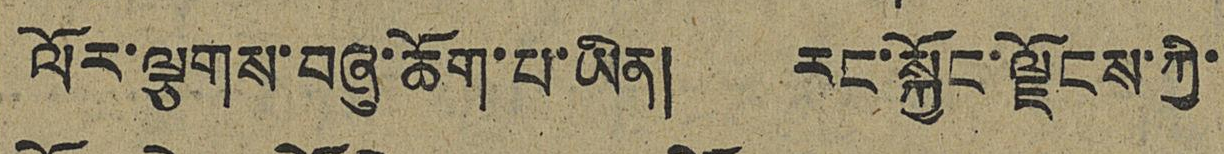ལོར་ལྕགས་བཞུ་ཆོག་པ་ཡིན། རང་སྐྱོང་ལྗོངས་ཀྱི་
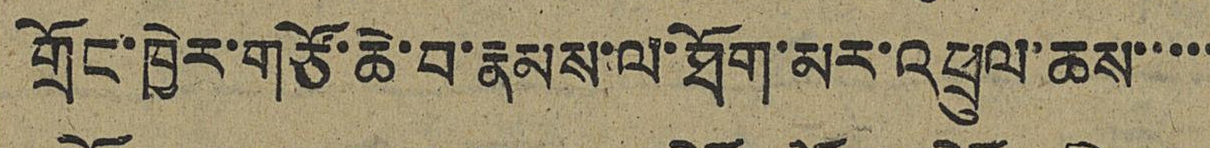གྲོང་ཁྱེར་གཙོ་ཆེ་བ་རྣམས་ལ་ཐོག་མར་འཕྲུལ་ཆས་་་་་
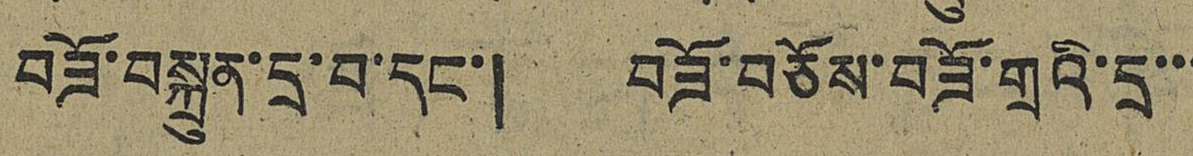བཟོ་བསྐྲུན་དྲ་བ་དང་། བཟོ་བཅོས་བཟོ་གྲའི་དྲ་་་
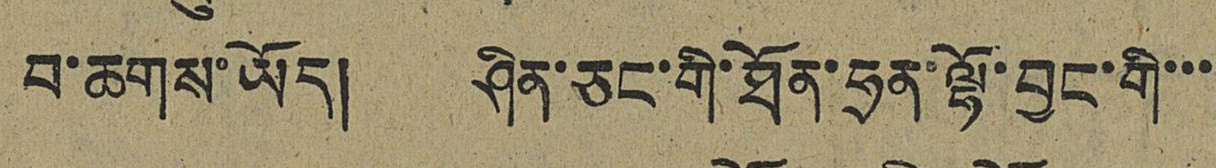བ་ཆགས་ཡོད། ཤིན་ཅང་གི་ཐོན་ཧྲན་ལྷོ་བྱང་གི་་་
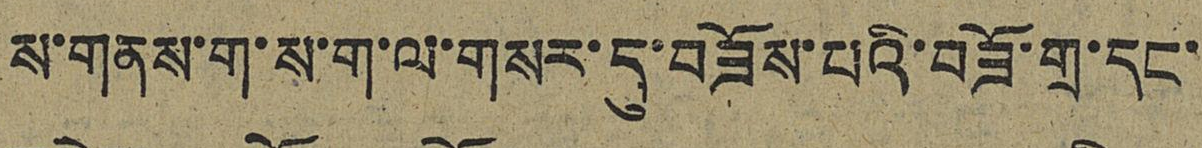ས་གནས་ག་ས་ག་ལ་གསར་དུ་བཟོས་པའི་བཟོ་གྲ་དང་
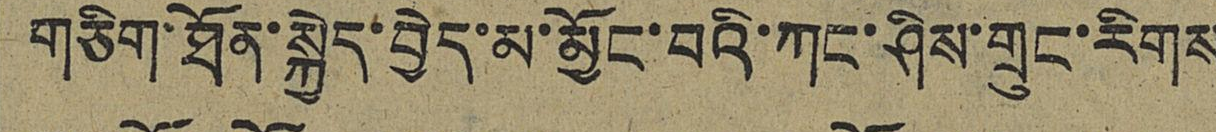གཅིག་ཐོན་སྐྱེད་བྱེད་མ་མྱོང་བའི་ཀང་ཤིས་གྲུང་རིགས
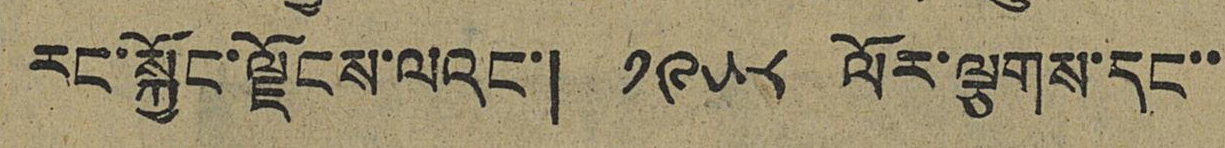རང་སྐྱོང་ལྗོངས་ལའང་། ༡༩༥༨ ལོར་ལྕགས་དང་་
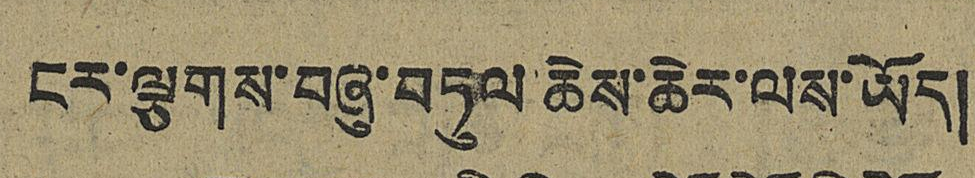ངར་ལྕགས་བཞུ་བཏུལ་ཆེས་ཆེར་ལས་ཡོད།
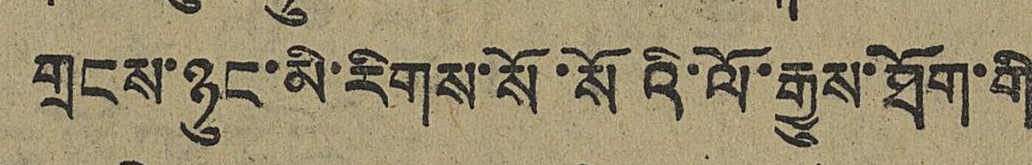གྲངས་ཉུང་མི་རིགས་སོ་སོའི་ལོ་རྒྱུས་ཐོག་གི
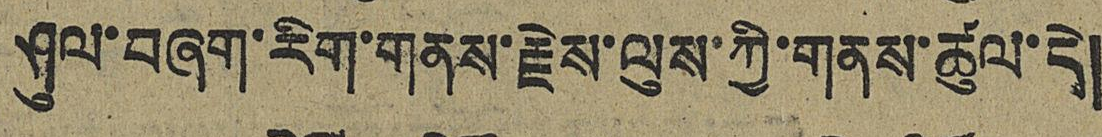ཤུལ་བཞག་རིག་གནས་རྗེས་ལུས་ཀྱི་གནས་ཚུལ་དེ།
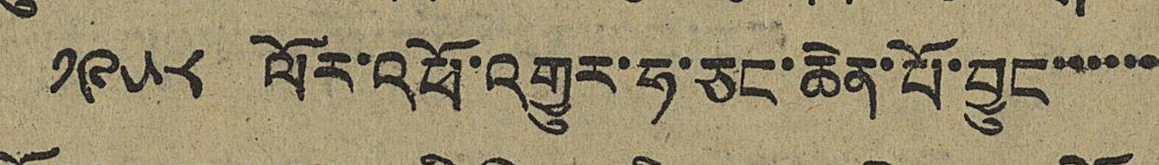༡༩༥༨ ལོར་འཕོ་འགྱུར་ཧ་ཅང་ཆེན་པོ་བྱུང་་་་་་
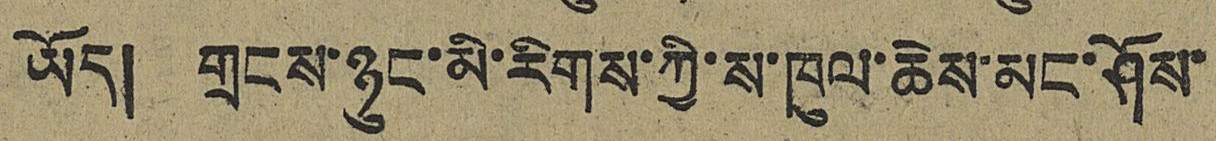ཡོད། གྲངས་ཉུང་མི་རིགས་ཀྱི་ས་ཁུལ་ཆེས་མང་ཤོས་
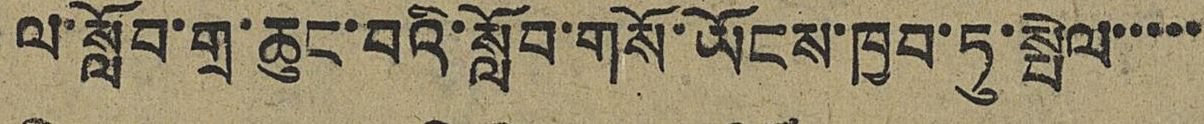ལ་སློབ་གྲ་ཆུང་བའི་སློབ་གསོ་ཡོངས་ཁྱབ་ཏུ་སྤེལ་་་་་
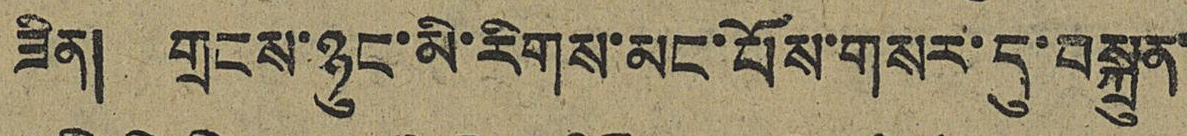ཟིན། གྲངས་ཉུང་མི་རིགས་མང་པོས་གསར་དུ་བསྐྲུན་
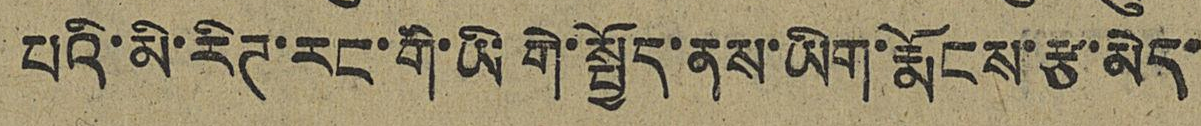པའི་མི་རིཊ་རང་གི་ཡི གེ་སྤྱོད་ནས་ཡིག་རྨོངས་རྩ་མེད་
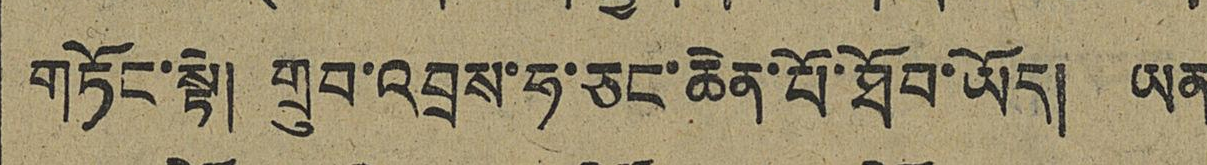གཏོང་སྟེ། གྲུབ་འབྲས་ཧ་ཅང་ཆེན་པོ་ཐོབ་ཡོད། ཡན
